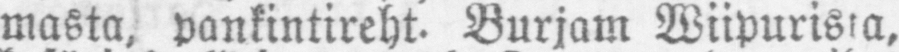masta, pankintireht. Burjam Wiipurista,
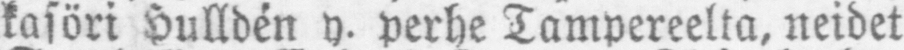kasöri Hulldén y. perhe Tampereelta, neidet
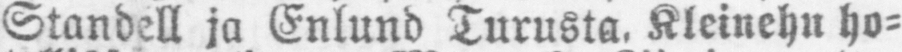Standell ja Enlund Turusta. Kleinehu ho-
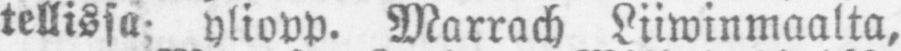tellissa; yliopp. Marrach Liiwinmaalta,
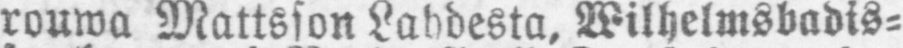rouwa Mattsson Lahdesta. Wilhelmsbadis-
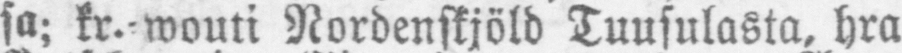sa; kr.-wouti Nordenskjöld Tuusulasta, hra
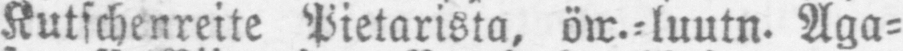Kutschenreite Pietarista, öw.-luutn. Aga-
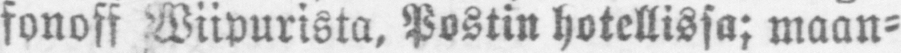fonoff Wiipurista, Postin hotellissa; maan-
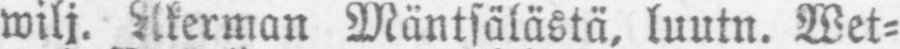wilj. Akerman Mäntsälästä, luutn. Wet-
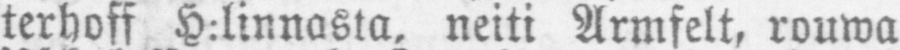terhoff H:linnasta, neiti Armfelt, rouwa
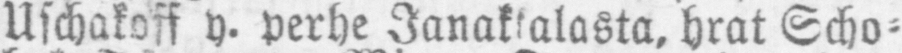Uschakoff y. perhe Janakkalasta, hrat Scho-
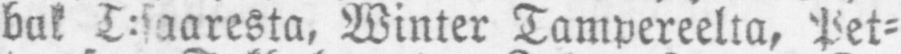bak T:saaresta, Winter Tampereelta, Pet-
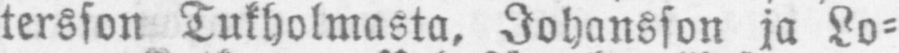tersson Tukholmasta. Johansson ja Lo-
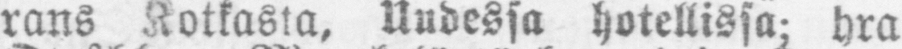rans Kotkasta, Uudessa hotellissa; hra
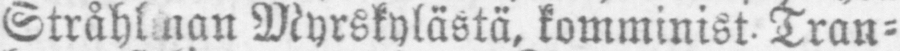Stråhlman Myrskylästä, komminist. Tran-
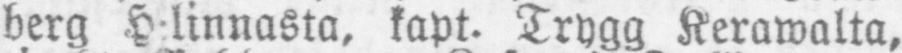berg H:linnasta, kapt. Trygg Kerawalta,
